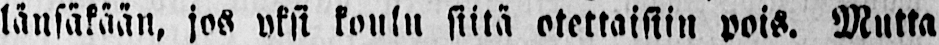länsäkään, jos yksi koulu siitä otettaisiin pois. Mutta
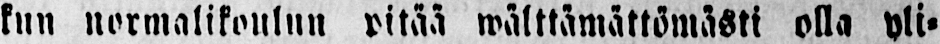kun normalikoulun pitää wälttämättömästi olla yli-
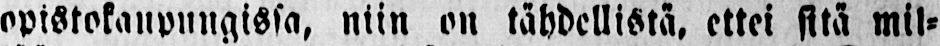opistokaupungissa, niin on tähdellistä, ettei sitä mil-
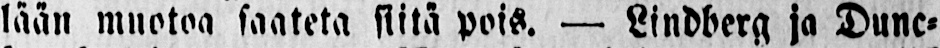lään muotoa saateta siitä pois. — Lindberg ja Dunc-
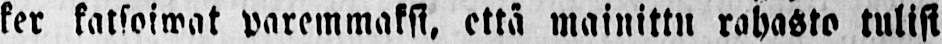ker katsoiwat paremmaksi, että mainittu rahasto tulisi
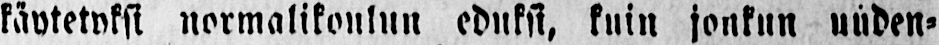käytetyksi normalikoulun eduksi, kuin jonkun uuden-
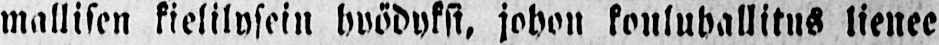mallisen kielilysein hyödyksi, johon kouluhallitus lienee
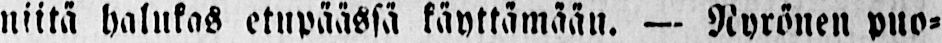niitä halukas etupäässä käyttämään. — Nyrönen puo-
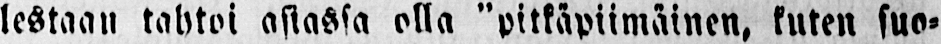lestaan tahtoi asiassa olla ”pitkäpiimäinen, kuten suo-
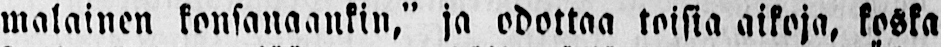malainen konsanaankin,” ja odottaa toisia aikoja, koska
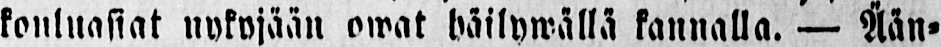kouluasiat nykyjään owat häilywällä kannalla. — Ään-
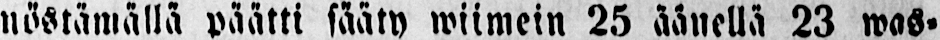nöstämällä päätti sääty wiimein 25 äänellä 23 was-
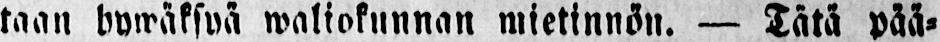taan hywäksyä waliokunnan mietinnön. — Tätä pää-
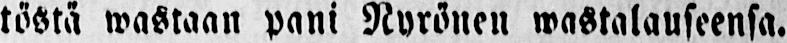töstä wastaan pani Nyrönen wastalauseensa.
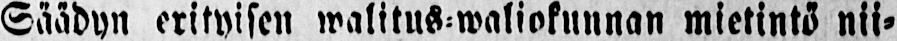Säädyn erityisen walitus-waliokunnan mietintö nii-
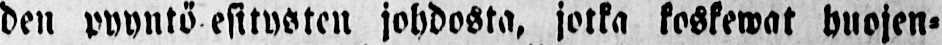den pyyntö esitysten johdosta, jotka koskewat huojen-
